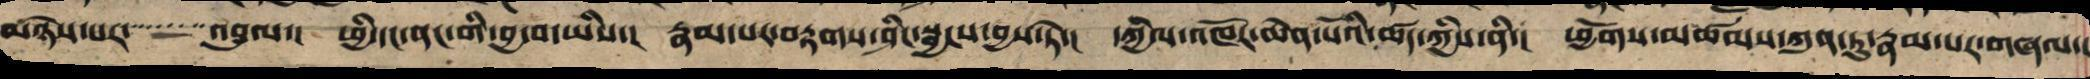མཉེས་པར་འབུལ་། ཕྱི་དང་ནང་གི་བྱ་བ་ཡིས། རྣམ་པར་བརྟགས་ཤིང་སྦྱངས་བྱས་ཏེ་། དཀྱིལ་འཁོར་ཆེན་པོའི་ཚད་ཀྱིས་ནི་། ཕྱོགས་མཚམས་ཀུན་དུ་རྣམ་པར་གཞལ་།
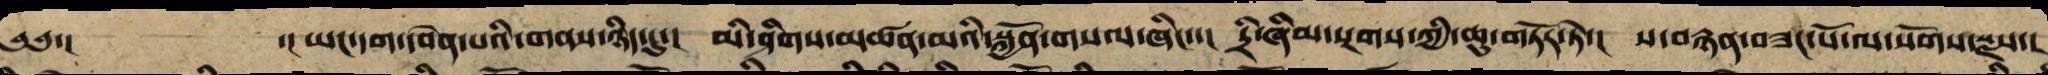༄༅་། ་།ཡང་དག་དབེན་པའི་གནས་ཉིད་དུ་། མི་ཤིགས་མཚན་མའི་སྐྱོན་བསལ་ཞིང་་། དྲི་ཞིམ་སྔགས་ཀྱི་ཆུ་གཏོར་ཏེ་། ས་བརྙན་བཟང་པོ་ལ་སོགས་སྫས་།
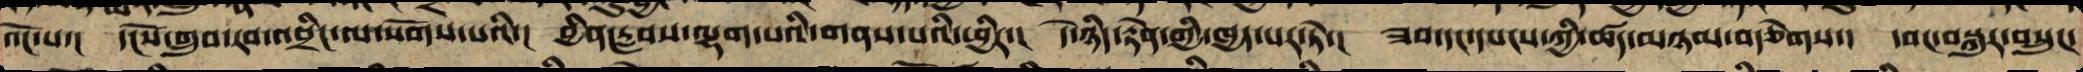འོང་བ་། དངོས་གྲུབ་རབ་འབྲིང་ལ་སོགས་པའི་། བྱིན་རླབས་ལྷག་པར་གནས་པའི་ཕྱིར་། དེ་ཉིད་རྟེན་གྱི་ཁྱད་པར་ཏེ་། ཟབ་དང་དཔངས་ཀྱི་ཚད་མཉམ་བརྩེགས་། དབང་བསྐུར་བསྲུང་
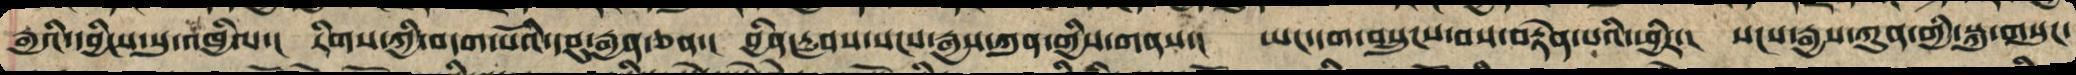རྒྱའི་དབྱིངས་སུ་འཁྱིལ།་ རིགས་ཀྱི་བདག་པོའི་དབུ་རྒྱན་ཅན་། བྱིན་རླབས་སངས་རྒྱས་ཀུན་གྱི་གནས་། ཡང་དག་བསྲུངས་པས་བརྟེན་པའི་ཕྱིར་། སངས་རྒྱས་ཀུན་གྱི་སྐུ་གསུང་
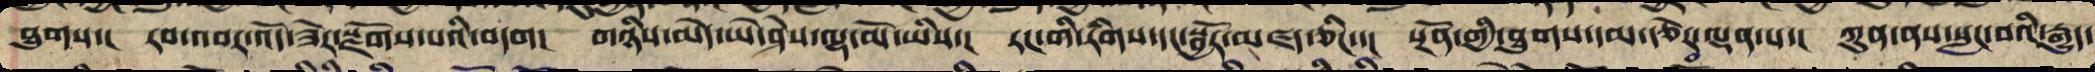ཐུགས་། རབ་འབར་འོད་ཟེར་སྫོགས་པའི་བདག། གཉིས་མེད་ཡེ་ཤེས་ལྷ་མོ་ཡིས་། རང་གི་རིགས་དང་སྦྱོར་མཛད་ཅིང་་། སྔོན་གྱི་ཐུགས་དམ་རྩེར་ལྡན་པས་། ཀུན་ནས་སླང་བའི་རྒྱུད་
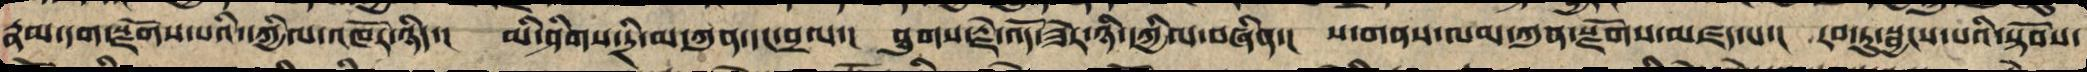རྣམ་དག་རྫོགས་པའི་དཀྱིལ་འཁོར་ཉིད། །མི་ཤིགས་དྲི་མ་ཀུན་དང་བྲལ། །ཐུགས་རྗེ་འོད་ཟེར་ཉི་དཀྱིལ་བཞིན། །ས་གནས་ལམ་ཀུན་རྫོགས་མཛད་པ། །རབ་ཏུ་སྦྱངས་པའི་སྟོབས་
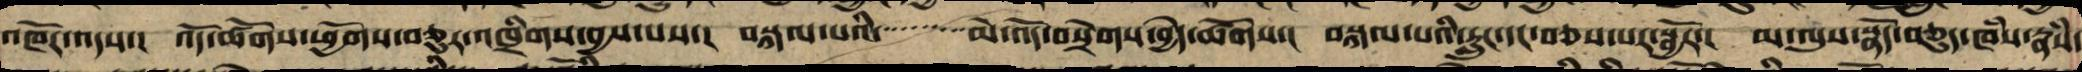འཁོར་ལས་། འོད་ཚོགས་ཕྱོགས་བཅུར་འཁྲིགས་བྱས་པས་། བསྐལ་པའི་མེ་འོད་སྲེག་བྱེད་ཚོགས་། བསྐལ་པའི་རླུང་དང་བཅས་པར་སྦྱོར་། མ་ལུས་སྣོད་བཅུད་ཁཾས་རྣཾས་
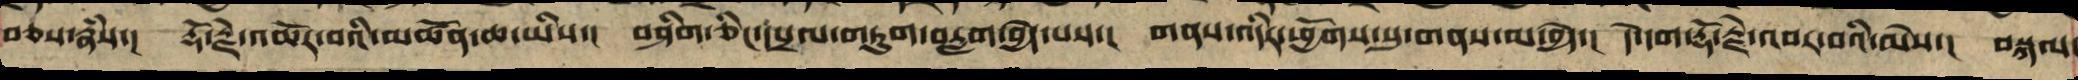བཅས་རྣཾས་། རྡོ་རྗེ་འཆོར་པའི་མཚོན་ཆ་ཡིས་། བཤིག་ཅིང་དབྲལ་གཏུག་བརླག་བྱེད་པས་། གནས་འདིར་ཕྱོགས་སུ་གནས་མ་བྱེད་། དེ་དག་རྡོ་རྗེ་འབར་བའི་མེས་། བསྐལ
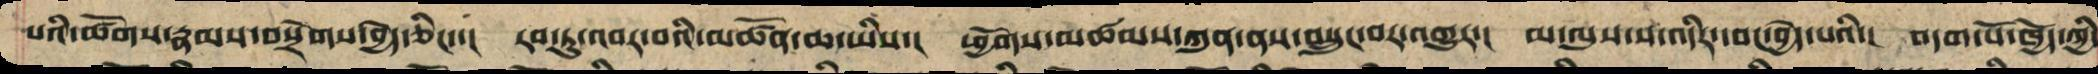པའི་ཚོགས་རྣམས་བསྲེག་བྱེད་ཅིང་་། རབ་ཏུ་འབར་བའི་མཚོན་ཆ་ཡིས་། ཕྱོགས་མཚམས་ཀུན་ནས་བསྲུང་བར་འགྱུར་། མ་ལུས་ས་འདིར་དབང་བྱེད་པའི་། བདག་པོ་ཁྱོད་ཀྱི
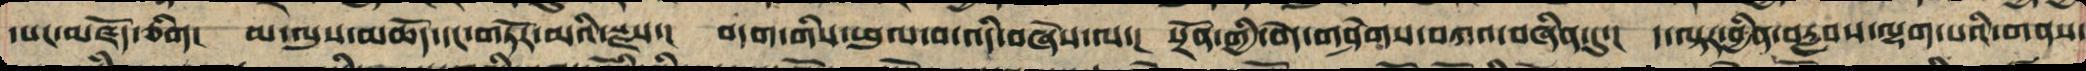དཔང་མཛོད་ཅིག། མ་ལུས་མཆོད་དང་གཏོར་མའི་སྫས་། བདག་གིས་ཕུལ་བ་འདི་བཞེས་ལ། སྔོན་གྱི་བདེ་གཤེགས་བཀའ་བཞིན་དུ་། ད་ལྟར་བྱིན་བརླབས་ལྷག་པའི་གནས་
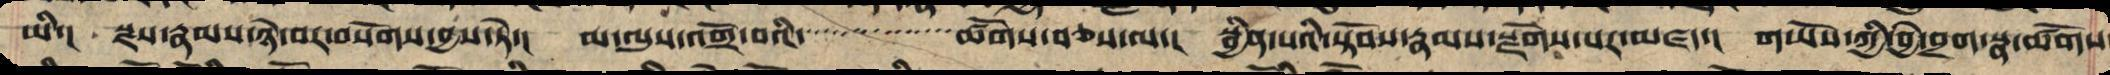ཡི་། སྫས་རྣམས་ཉེ་བར་བསོགས་བྱས་ཏེ་། མ་ལུས་འགྲོ་བའི་ཚོགས་བཅས་ལ་། སྦྱིན་པའི་སྟོབས་རྣམས་སྫོགས་པར་མཛད་། གཡོས་ཀྱི་བྱེ་བྲག་སྣ་ཚོགས
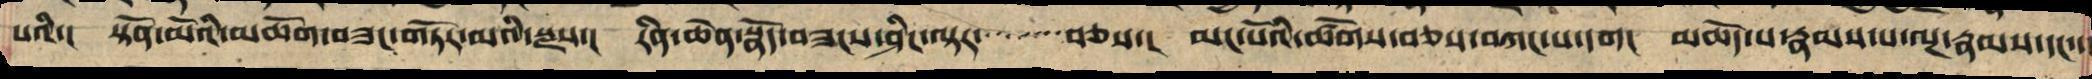པའི་། སྟོན་མོའི་མཆོག་བཟང་གཏོར་མའི་སྫས་། རིན་ཆེན་སྣོད་བཟང་ཤིང་ལྟར་བཅས་། མང་པོའི་ཚོགས་བཅས་བཀང་པ་དག། མཆོད་པ་རྣམ་པ་ལྔ་རྣམས་དང་་
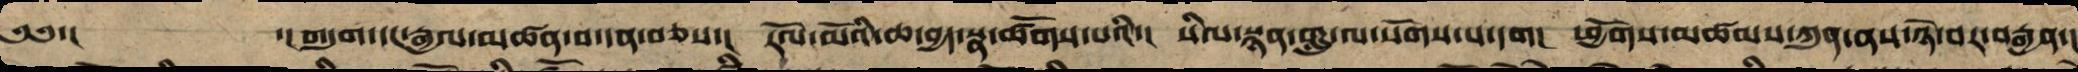༄༅་། ་།གདུགས་དང་རྒྱལ་མཚན་བ་དན་བཅས་། རོལ་མོའི་ཆ་བྱད་སྣ་ཚོགས་པའི་། སིལ་སྙན་གླུ་ལ་སོགས་པ་དག། ཕྱོགས་མཚམས་ཀུན་ནས་ཉེ་བར་བརྒྱན་།
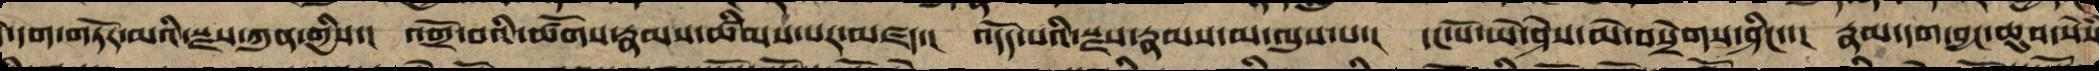དེ་དག་གཏོར་མའི་སྫས་ཀུན་གྱིས་། འགྲོ་བའི་ཚོགས་རྣམས་ཚིམས་པར་མཛད་། འདོད་པའི་སྫས་རྣམས་མ་ལུས་པ་། དང་པོ་ཡེ་ཤེས་མེ་བསྲེགས་ཤིང་་། རྣམ་དག་བྱང་ཆུབ་སེཾས
